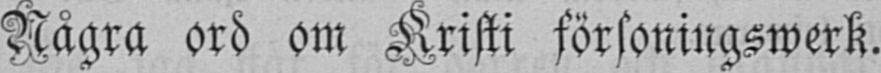Några ord om Kristi försoningswerk.
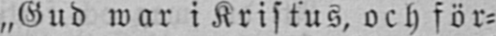„Gud war i Kristus, och för-
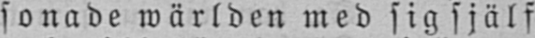sonade wärlden med sig själf
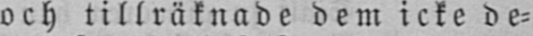och tillräknade dem icke de-
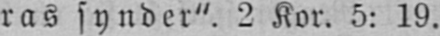ras synder", 2 Kor. 5: 19.
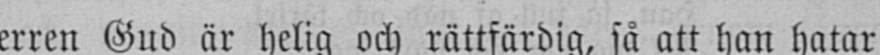erren Gud är helig och rättfärdig, så att han hatar
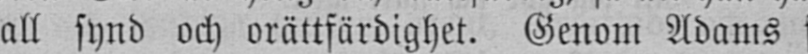all synd och orättfärdighet. Genom Adams fall
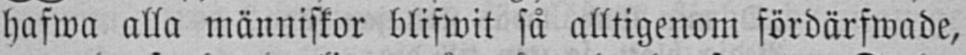hafwa alla människor blifwit så alltigenom fördärfwade,
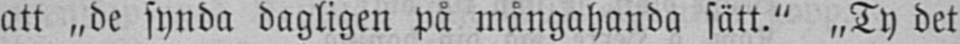att „de synda dagligen på mångahanda sätt." „Ty det
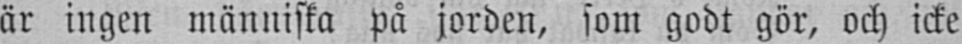är ingen människa på jorden, som godt gör, och icke
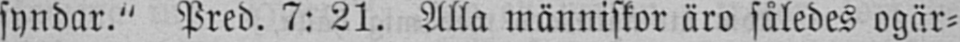syndar." Pred. 7: 21. Alla människor äro således ogär-
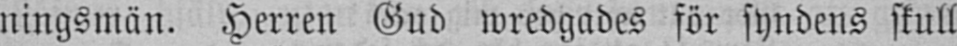ningsmän. Herren Gud wredgades för syndens skull
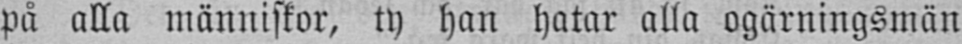på alla människor, ty han hatar alla ogärningsmän
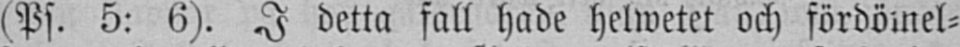(Ps. 5: 6). I detta fall hade helwetet och fördömel-
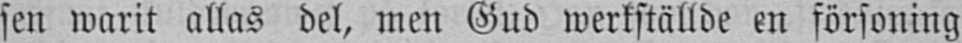sen warit allas del, men Gud werkställde en försoning
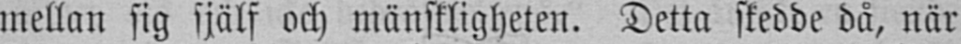mellan sig själf och mänskligheten. Detta skedde då, när
